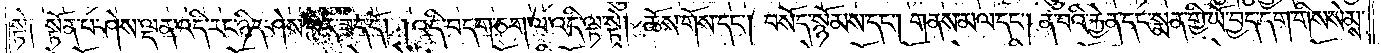སྟེ༑ སྟོན་པ་ཤེས་ལྡན་འདི་རང་ཉིད་ཤེས་པར་ཟད་དོ། །འདི་བདག་ཅག་ལ་འདི་ལྟ་སྟེ། ཆོས་གོས་དང༌། བསོད་སྙོམས་དང༌། གནས་མལ་དང༌། ན་བའི་རྐྱེན་དང་སྨན་གྱི་ཡོ་བྱད་དག་གིས་སེམས་
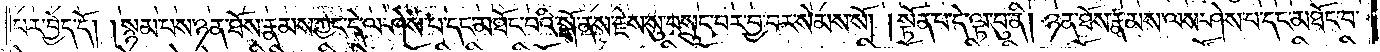པར་བྱེད་དོ། །སྙམ་པས་ཉན་ཐོས་རྣམས་ཀྱང་དེ་ལ་ཤེས་པ་དང་མཐོང་བའི་སྒོ་ནས་རྗེས་སུ་བསྲུང་བར་བྱ་བར་སེམས་སོ། །སྟོན་པ་དེ་ལྟ་བུ་ནི། ཉན་ཐོས་རྣམས་ལས་ཤེས་པ་དང་མཐོང་བ་
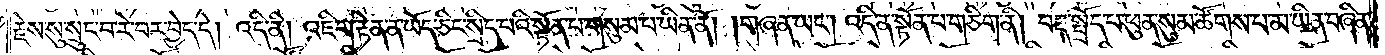རྗེས་སུ་སྲུང་བ་རེ་བར་བྱེད་དེ། འདི་ནི། འཇིག་རྟེན་ན་ཡོད་ཅིང་སྲིད་པའི་སྟོན་པ་གསུམ་པ་ཡིན་ནོ། །གཞན་ཡང༌། འདི་ན་སྟོན་པ་གཅིག་ནི། བརྡ་སྤྲོད་པ་ཕུན་སུམ་ཚོགས་པ་མ་ཡིན་བཞིན་
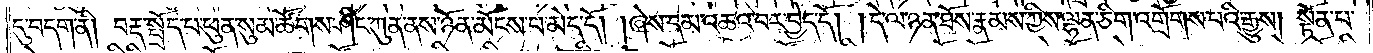དུ་བདག་ནི། བརྡ་སྤྲོད་པ་ཕུན་སུམ་ཚོགས་ཤིང་ཀུན་ནས་ཉོན་མོངས་པ་མེད་དོ། །ཞེས་དམ་འཆའ་བར་བྱེད་དོ། །དེ་ལ་ཉན་ཐོས་རྣམས་ཀྱིས་ལྷན་ཅིག་འགྲོགས་པའི་རྒྱུས། སྟོན་པ་
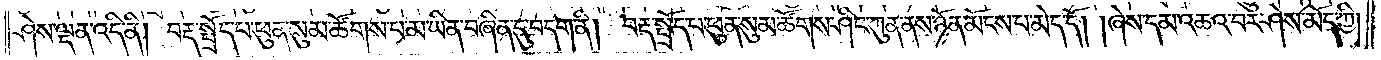ཤེས་ལྡན་འདི་ནི། བརྡ་སྤྲོད་པ་ཕུན་སུམ་ཚོགས་པ་མ་ཡིན་བཞིན་དུ་བདག་ནི། བརྡ་སྤྲོད་པ་ཕུན་སུམ་ཚོགས་ཤིང་ཀུན་ནས་ཉོན་མོངས་པ་མེད་དོ། །ཞེས་དམ་འཆའ་བར་ཤེས་མོད་ཀྱི།
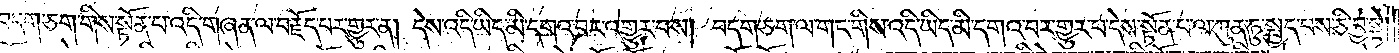བདག་ཅག་གིས་སྟོན་པ་འདི་གཞན་ལ་བརྗོད་པར་གྱུར་ན། དེས་འདི་ཡིད་མི་དགའ་བར་འགྱུར་བས། བདག་ཅག་ལ་གང་གིས་འདི་ཡིད་མི་དགའ་བར་གྱུར་པ་དེས་སྟོན་པ་ལ་ཀུན་ཏུ་སྤྱད་པས་ཅི་བྱ་སྟེ།
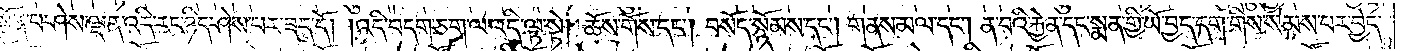སྟོན་པ་ཤེས་ལྡན་འདི་རང་ཉིད་ཤེས་པར་ཟད་དོ། །འདི་བདག་ཅག་ལ་འདི་ལྟ་སྟེ། ཆོས་གོས་དང༌། བསོད་སྙོམས་དང༌། གནས་མལ་དང༌། ན་བའི་རྐྱེན་དང་སྨན་གྱི་ཡོ་བྱད་དག་གིས་སེམས་པར་བྱེད་
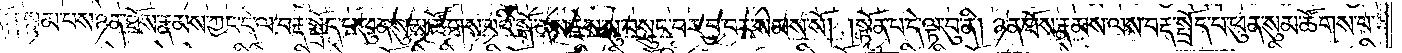དོ༑ ༑སྙམ་པས་ཉན་ཐོས་རྣམས་ཀྱང་དེ་ལ་བརྡ་སྤྲོད་པ་ཕུན་སུམ་ཚོགས་པའི་སྒོ་ནས་རྗེས་སུ་བསྲུང་བར་བྱ་བར་སེམས་སོ། །སྟོན་པ་དེ་ལྟ་བུ་ནི། ཉན་ཐོས་རྣམས་ལས་བརྡ་སྤྲོད་པ་ཕུན་སུམ་ཚོགས་པ་
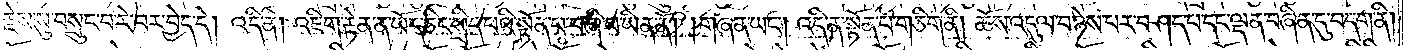རྗེས་སུ་བསྲུང་བ་རེ་བར་བྱེད་དེ། འདི་ནི། འཇིག་རྟེན་ན་ཡོད་ཅིང་སྲིད་པའི་སྟོན་པ་བཞི་པ་ཡིན་ནོ། །གཞན་ཡང༌། འདི་ན་སྟོན་པ་གཅིག་ནི། ཆོས་འདུལ་བ་ཉེས་པར་བཤད་པ་དང་ལྡན་བཞིན་དུ་བདག་ནི།
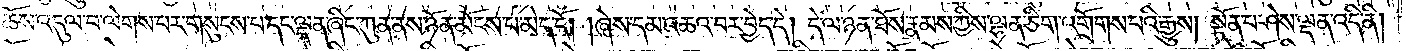ཆོས་འདུལ་བ་ལེགས་པར་གསུངས་པ་དང་ལྡན་ཞིང་ཀུན་ནས་ཉོན་མོངས་པ་མེད་དོ། །ཞེས་དམ་འཆའ་བར་བྱེད་དེ། དེ་ལ་ཉན་ཐོས་རྣམས་ཀྱིས་ལྷན་ཅིག་འགྲོགས་པའི་རྒྱུས། སྟོན་པ་ཤེས་ལྡན་འདི་ནི།
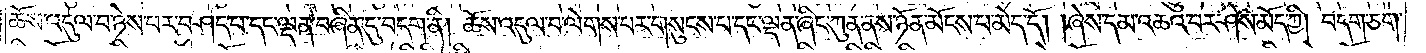ཆོས་འདུལ་བ་ཉེས་པར་བཤད་པ་དང་ལྡན་བཞིན་དུ་བདག་ནི། ཆོས་འདུལ་བ་ལེགས་པར་གསུངས་པ་དང་ལྡན་ཞིང་ཀུན་ནས་ཉོན་མོངས་པ་མེད་དོ། །ཞེས་དམ་འཆའ་བར་ཤེས་མོད་ཀྱི། བདག་ཅག་
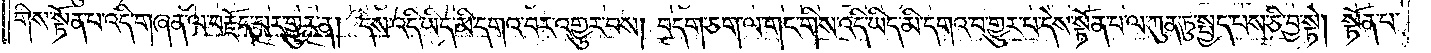གིས་སྟོན་པ་འདི་གཞན་ལ་བརྗོད་པར་གྱུར་ན། དེས་འདི་ཡིད་མི་དགའ་བར་འགྱུར་བས། བདག་ཅག་ལ་གང་གིས་འདི་ཡིད་མི་དགའ་བར་གྱུར་པ་དེས་སྟོན་པ་ལ་ཀུན་ཏུ་སྤྱད་པས་ཅི་བྱ་སྟེ། སྟོན་པ་
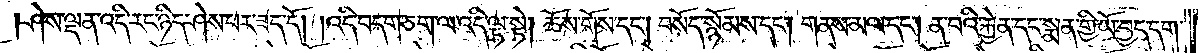ཤེས་ལྡན་འདི་རང་ཉིད་ཤེས་པར་ཟད་དོ། །འདི་བདག་ཅག་ལ་འདི་ལྟ་སྟེ། ཆོས་གོས་དང༌། བསོད་སྙོམས་དང༌། གནས་མལ་དང༌། ན་བའི་རྐྱེན་དང་སྨན་གྱི་ཡོ་བྱད་དག་
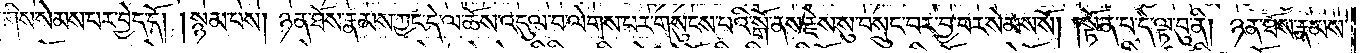གིས་སེམས་པར་བྱེད་དོ། །སྙམ་པས། ཉན་ཐོས་རྣམས་ཀྱང་དེ་ལ་ཆོས་འདུལ་བ་ལེགས་པར་གསུངས་པའི་སྒོ་ནས་རྗེས་སུ་བསྲུང་བར་བྱ་བར་སེམས་སོ། །སྟོན་པ་དེ་ལྟ་བུ་ནི། ཉན་ཐོས་རྣམས་
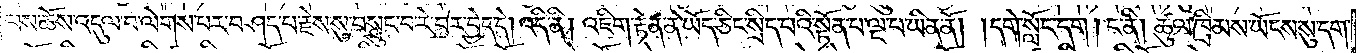ལས་ཆོས་འདུལ་བ་ལེགས་པར་བཤད་པ་རྗེས་སུ་བསྲུང་བ་རེ་བར་བྱེད་དེ། འདི་ནི། འཇིག་རྟེན་ན་ཡོད་ཅིང་སྲིད་པའི་སྟོན་པ་ལྔ་པ་ཡིན་ནོ། །དགེ་སློང་དག །ང་ནི། ཚུལ་ཁྲིམས་ཡོངས་སུ་དག་
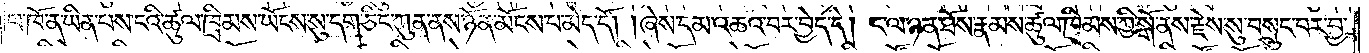པ་ཁོ་ན་ཡིན་པས་ངའི་ཚུལ་ཁྲིམས་ཡོངས་སུ་དག་ཅིང་ཀུན་ནས་ཉོན་མོངས་པ་མེད་དོ། །ཞེས་དམ་འཆའ་བར་བྱེད་དེ། ང་ལ་ཉན་ཐོས་རྣམས་ཚུལ་ཁྲིམས་ཀྱི་སྒོ་ནས་རྗེས་སུ་བསྲུང་བར་བྱ་
